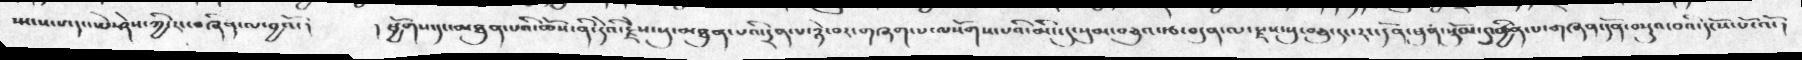སྤངས་པ་དང་ཡེ་ཤེས་ཀྱི་རང་བཞིན་ལ་བྱའོ་།   ། ཕྱོགས་དང་མཐུན་པའི་ཆོས་ནི་དེའི་རྗེས་སུ་མཐུན་པའི་དྲན་པ་ཉེ་བར་གཞག་པ་ལསོགས་པའི་མིང་དུ་སུམ་བཅུའ་རྩ་བདུན་ལ་རྫས་སུ་བཅུ་དང་རང་དོན་ཕུན་སུམ་དུ་ཕྱིན་པ་གཞན་དོན་བསྡུའ་བའི་དངོས་པོ་འོ་།
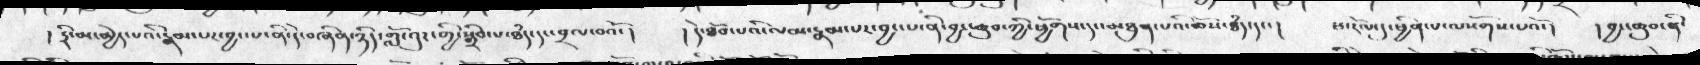།  དྲི་མ་མྱེད་པའི་རྣམ་པར་བྱང་པ་ནི་དེ་བཞིན་ཉིད་གློ་བུར་གྱི་སྒྲིབ་པ་ཐཾད་དང་བྲལ་བའོ་།   ། དེ་ཐོབ་པའི་ལམ་རྣམ་པར་བྱང་པ་ནི་བྱང་ཆུབ་ཀྱི་ཕྱོགས་དང་མཐུན་པའི་ཆོས་ཐཾད་དང་།  ཕ་རོལ་དུ་ཕྱིན་པ་ལསོགས་པའོ་།  ། བྱང་ཆུབ་ནི་
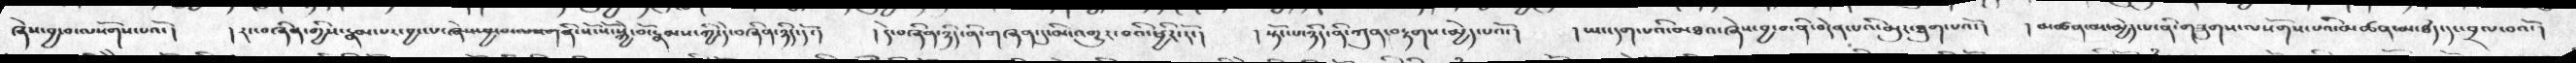ཞེས་བྱ་བ་ལསོགས་པའོ་།  །རང་བཞིན་གྱིས་རྣམ་པར་བྱང་པ་ཞེས་བྱ་བ་ལ་ངག་ནི་སོ་སོ་སྐྱེ་བོ་རྣམས་ཀྱི་དེ་བཞིན་ཉིད་དོ་།  ། དེ་བཞིན་ཉིད་ནི་གཞན་དོན་དུ་མི་འགྱུར་བའི་ཕྱིར་རོ་།   ། སྟོང་པ་ཉིད་ནི་ཀུན་བརྟགས་མྱེད་པའོ་།   ། ཡང་དག་པའི་མཐའ་ཞེས་བྱ་བ་ནི་བདེན་པའི་མུར་ཐོག་པའོ་།  ། མཚན་མ་མྱེད་པ་ནི་གཟུགས་ལསོགས་པའི་མཚན་མ་ཐཾད་དང་བྲལ་བའོ་།
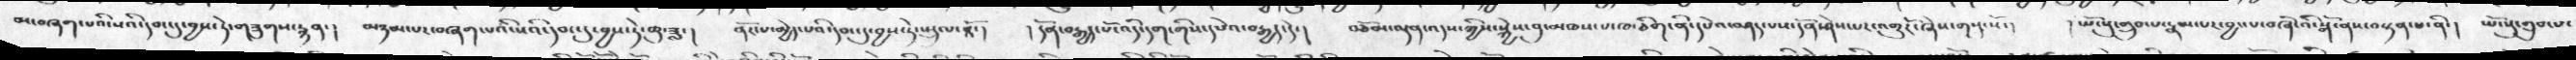མ་བཞག་པའི་སའི་དབང་དུ་བྱས་ཏེ་གཟུགས་རྙན་།  མཉམ་པར་བཞག་པའི་སའི་དབང་དུ་བྱས་ཏེ་ཆུ་ཟླ་།  ནོང་པ་མྱེད་པའི་དབང་དུ་བྱས་ཏེ་སྤྲུལ་པའོ་།  །དོན་བརྒྱད་པོ་འདི་དག་གིས་དཔེའ་བརྒྱད་དེ་།  བཅོམ་ལྡན་འདས་ཀྱི་སྐྱེས་བུ་མཁས་པ་ཁ་ཅིག་ནི་དཔེའ་བཤད་པས་དོན་ཤེས་པར་འགྱུརོ་ཞེས་གསུངསོ་།   ། ཡོངས་སུ་གྲུབ་པ་རྣམ་པར་བྱང་པ་བཞི་འི་སྒོ་ནས་བསྟན་པ་ནི་།  ཡོངས་སུ་གྲུབ་པ་
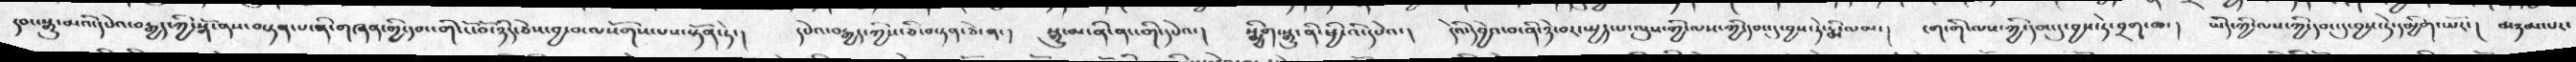དབང་སྒྱུ་མའ་དཔེའ་བརྒྱད་ཀྱི་སྒོ་ནས་བསྟན་པ་ནི་གཞན་གྱི་དབང་གི་ངོ་བོ་ཉིད་ཅེས་བྱ་བ་ལསོགས་པས་སྟོན་ཏེ་།   དཔེའ་བརྒྱད་ཀྱིས་ཅི་བསྟན་ཅེ་ན་།  སྒྱུ་མ་ནི་གང་གི་དཔེའ་།   སྨྱིག་སྒྱུ་ན་ཕྱི་འི་དཔེའ་།   དེའི་དབྱེ་བ་ནི་ཉེ་བར་སྤྱད་པ་ལུས་ཀྱི་ལས་ཀྱི་དབང་དུ་བྱས་ཏེ་རྨོ་ལམ་།   ངག་གི་ལས་ཀྱི་དབང་དུ་བྱས་ཏེ་བྲག་ཆ་།   ཡིད་ཀྱི་ལས་ཀྱི་དབང་དུ་བྱས་ཏེ་དམྱིག་ཡོང་།  མཉམ་པར་
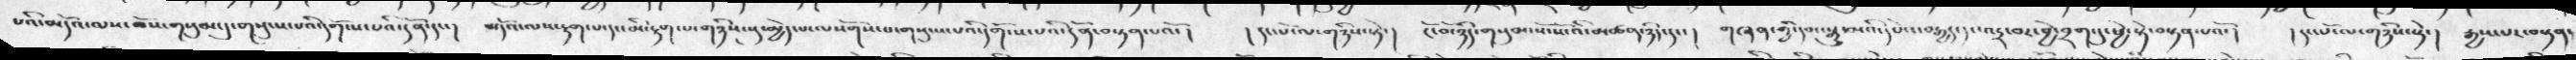པའི་མདོའ་ལས་ཆོས་གསུམ་དུ་གསུངས་པའི་དགོངས་པའི་དོན་དང་།   མདོའ་ལས་རྟག་པ་དང་མི་རྟག་པ་གཉིས་སུ་མྱེད་པ་ལསོགས་པ་གསུངས་པའི་དགོངས་པ་པའི་དོན་བསྟན་པའོ་།   ། དང་པོ་ལ་གཉིས་སྟེ་།  ངོ་བོ་ཉིད་གསུམ་སོ་སོའི་མཚན་ཉིད་དང་།  གཞན་གྱི་དབང་སྒྱུ་མའི་དཔེའ་བརྒྱད་དང་འདྲ་བར་བྱེ་བྲག་དུ་ཕྱེ་སྟེ་བསྟན་པའོ་།  ། དང་པོ་ལ་གཉིས་སྟེ་།  རྒྱས་པར་བསྟན་
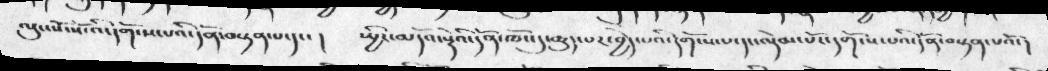ལང་སོ་སོ་འི་དགོངས་པའི་དོན་བསྟན་པ་དང་།   སྤྱིར་མདོའ་སྡེའི་དོན་ཁོང་དུ་ཆུད་པར་བྱེད་པའི་དགོངས་པ་དང་ལྡེམ་པོར་དགོངས་པའི་དོན་བསྟན་པའོ་།
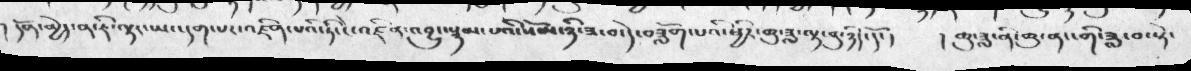།  དོན་མྱེད་ན་ཇི་ལྟར་ཡང་དག་པར་འཛིན་པའི་ཏིང་ངེ་འཛིན་འབྱུང་སྙམ་པའི་སོམ་ཉི་ཟ་བ་དེ་བཟློག་པའི་ཕྱིར་ཆུ་ཟླ་ལྟ་བུ་ཉིད་དོ་།   །  ཆུ་ཟླ་ནི་ཆུ་ནང་གི་ཟླ་བ་སྟེ་
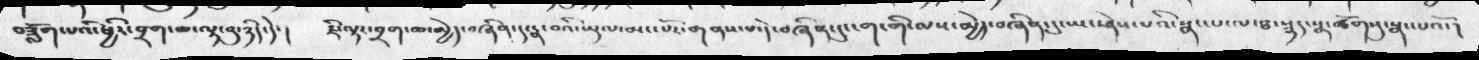བཟློག་པའི་ཕྱིར་བྲག་ཆ་ལྟ་བུ་ཉིད་དེ་།  ཇི་ལྟར་བྲག་ཆ་མྱེད་བཞིན་དུ་རྣ་བའི་ཡུལ་མང་པོར་གནས་པ་དེ་བཞིན་དུ་གང་གི་ལས་མྱེད་བཞིན་དུཡང་ཤེས་པའི་སྣང་པ་ལ་ཐ་སྙད་སྣ་ཚོགསུ་སྣང་པའོ་།
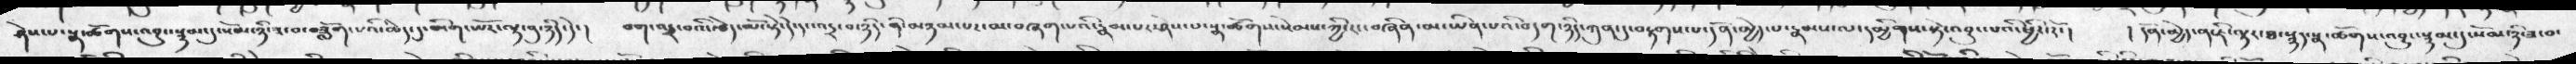ཤེས་པ་སྣ་ཚོགས་འབྱུང་སྙམ་དུ་སོམ་ཉི་ཟ་བ་བཟློག་པའི་ཆེད་དུ་མིག་ཡོར་ལྟ་བུ་ཉིད་དེ་།  བག་འདྲ་བའི་རྩེད་མོ་སྟེ་དེ་དང་འདྲ་བ་ཉིད་ནི་མཉམ་པར་མ་བཞག་པའི་རྣམ་པར་ཤེས་པ་སྣ་ཚོགས་སེམས་ཀྱི་རང་བཞིན་མ་ཡིན་པའི་བདག་ཉིད་ཀུན་ཏུ་བརྟགས་པ་དོན་མྱེད་པ་རྣམས་ལ་དམྱིགས་སྟེ་འབྱུང་པའི་ཕྱིར་རོ་།   ། དོན་མྱེད་ན་ཇི་ལྟར་ཐ་སྙད་སྣ་ཚོགས་འབྱུང་སྙམ་དུ་སོམ་ཉི་ཟ་བ་
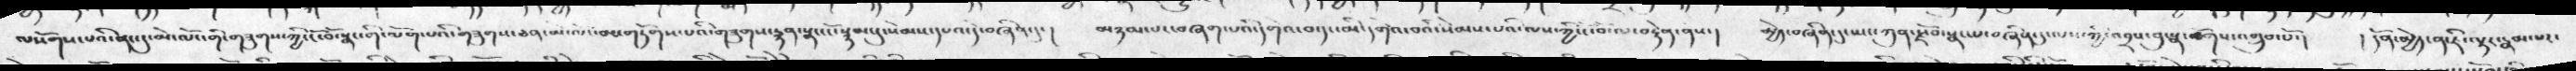ལསོགས་པའི་ནང་དུ་མེ་ལོག་གི་གཟུགས་ཀྱི་ངོ་བོ་སྣང་གི་ལོག་པའི་གཟུགས་ཅན་མེ་ལོང་མ་གཏོགས་གཟུགས་རྙན་སྣང་ངོ་སྙམ་དུ་སེམས་དཔའ་དེ་བཞིན་དུ་།   མཉམ་པར་བཞག་པའི་དགེ་བ་དང་མི་དགེའ་བའི་སེམས་པའི་ལས་ཀྱི་ངོ་བོ་ལ་བརྟེན་ནས་།   མྱེད་བཞིན་དུ་ཡང་ཀུན་རྗོབ་སྣང་བ་བཞིན་དུ་ལས་ཀྱི་འབྲས་བུ་སྣ་ཚོགས་འགྲུབ་པོ་།  ། དོན་མྱེད་ན་ཇི་ལྟར་རྣམ་པར་
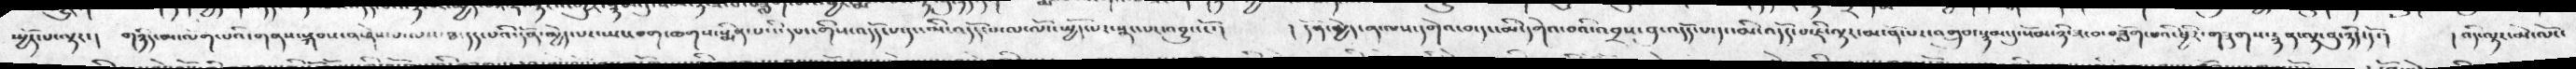སྤྱོད་པ་ལྟར་།  གཉིད་མ་ལོག་པའི་གནས་སྐབས་ན་ཤེས་པ་ལས་ཐ་དད་པའི་དོན་མྱེད་པར་ཡང་བག་ཆགས་སྨིན་པའི་དབང་གིས་འདོད་པ་དང་མི་འདོད་པ་ལ་ལོང་སྤྱོད་པར་སྣང་པར་འབྱུང་ངོ་།   ། དོན་མྱེད་ན་ལས་དགེའ་བ་དང་མི་དགེའ་བའི་འབྲས་བུ་འདོད་པ་དང་མི་འདོད་པ་ཇི་ལྟར་མངོན་པར་འགྲུབ་སྙམ་དུ་སོམ་ཉི་ཟ་བ་བཟློག་པའི་ཕྱིར་གཟུགས་རྙན་ལྟ་བུ་ཉིད་དོ་།  ། འདི་ལྟར་མེ་ལོང་
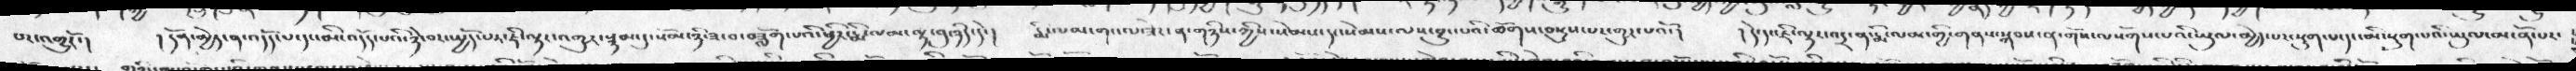པར་འགྱུརོ་།  ། དོན་མྱེད་ན་འདོད་པ་དང་མི་འདོད་པའི་ཉེ་བར་སྤྱོད་པར་ཇི་ལྟར་འགྱུར་སྙམ་དུ་སོམ་ཉི་ཟ་བ་བཟློག་པའི་ཕྱིར་རྨི་ལམ་ལྟ་བུ་ཉིད་དེ་།  རྨི་ལམ་གང་ལ་ཟེར་ན་གཉིས་ཀྱིས་སེམས་དང་སེམས་ལས་བྱུང་པའི་ཚོགས་བསྡུས་པར་གྱུར་པའོ་།   ། དེ་དང་ཇི་ལྟར་འདྲ་ན་རྨི་ལམ་གྱི་གནས་སྐབས་ན་གོས་ལསོགས་པའི་ཡུལ་མྱེད་པར་སྡུག་པ་དང་མི་སྡུག་པའི་ཡུལ་མངོན་པར་
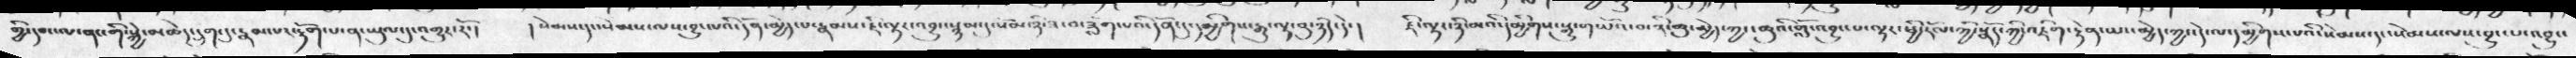གྱི་དབང་ལ་ནང་གི་སྐྱེ་མཆེད་དྲུག་དུ་རྣམ་པར་རྟོག་པ་ན་ཡུལ་དུ་འགྱུར་རོ་།  །སེམས་དང་སེམས་ལས་བྱུང་པའི་དོན་མྱེད་པ་རྣམས་ཇི་ལྟར་འབྱུང་སྙམ་དུ་སོམ་ཉི་ཟ་བ་བཟློག་པའི་དོན་དུ་དམྱིགས་རྒྱུ་ལྟ་བུ་ཉིད་དེ་།   ཇི་ལྟར་ཉི་མའི་དམྱིགས་སྒྱུ་གཡོའ་བ་ནི་ཆུ་མྱེད་ཀྱང་ཆུའི་གློ་འབྱུང་པ་ལྟར་ཕྱི་རོ་ཀྱི་སྣོད་ཀྱི་འཇིག་རྟེན་ཡང་མྱེད་ཀྱང་དེ་ལ་དམྱིགས་པའི་སེམས་དང་སེམས་ལས་བྱུང་པ་འབྱུང་
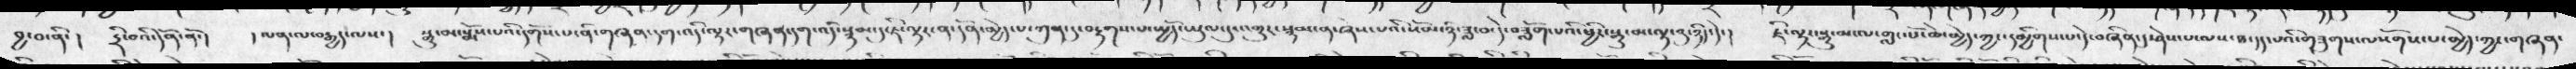བྱ་བ་ནི་།  དྲི་བའི་དོན་ནོ་།  ། ལན་ལ་བརྒྱད་ལས་།  སྒྱུ་མ་སྨོས་པའི་དགོས་པ་ནི་གཞན་དག་འདི་ལྟར་གཞན་དག་འདི་སྙམ་དུ་ཇི་ལྟར་ན་དོན་མྱེད་པ་ཀུན་དུ་བརྟག་པ་སྤྱོད་ཡུལ་དུ་འགྱུར་སྙམ་ན་ཞེས་པའི་སོམ་ཉི་ཟླ་བ་དེ་བཟློག་པའི་ཕྱིར་སྒྱུ་མ་ལྟ་བུ་ཉིད་དེ་།  ཇི་ལྟར་སྒྱུ་མ་ལ་གླང་པོ་ཆེ་མྱེད་ཀྱང་དམྱིགས་པ་དེ་བཞིན་དུ་ཤེས་པ་ལས་ཐ་དད་པའི་གཟུགས་ལསོགས་པ་མྱེད་ཀྱང་གཞན་
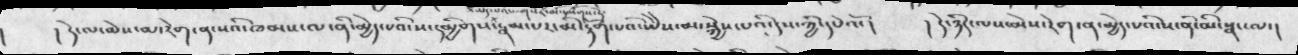།  དེ་ལ་ཆེས་མ་རེག་ན་སའི་ཁམས་ལ་ནི་མྱེད་པའི་ས་དམྱིགས་མེད་པའི་གར་མི་དམྱིགས་དེ་རྣམ་པར་མི་རྟོག་པའི་ཡེེས་མ་སྐྱེས་པའི་དུས་ཀྱི་དཔེའོ་།  ། དེ་ཉིད་ལས་མེས་རེག་ན་མྱེད་པའི་ས་ནི་མི་སྣང་ལ་།
